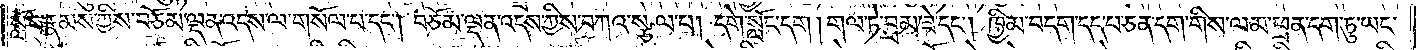སློང་རྣམས་ཀྱིས་བཅོམ་ལྡན་འདས་ལ་གསོལ་བ་དང༌། བཅོམ་ལྡན་འདས་ཀྱིས་བཀའ་སྩལ་པ། དགེ་སློང་དག །གལ་ཏེ་བྲམ་ཟེ་དང༌། ཁྱིམ་བདག་དད་པ་ཅན་དག་གིས་ལམ་ཕྲན་དག་ཏུ་ཡང་
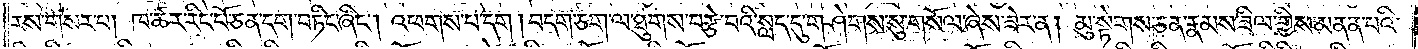རས་གསར་པ། ཁ་ཚར་རིང་པོ་ཅན་དག་བཏིང་ཞིང༌། འཕགས་པ་དག །བདག་ཅག་ལ་ཐུགས་བརྩེ་བའི་སླད་དུ་གཤེགས་སུ་གསོལ་ཞེས་ཟེར་ན། མུ་སྟེགས་ཅན་རྣམས་ཟིལ་གྱིས་མནན་པའི་
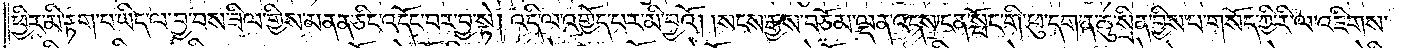ཕྱིར་མི་རྟག་པ་ཡིད་ལ་བྱ་བས་ཟིལ་གྱིས་མནན་ཅིང་འདོང་བར་བྱ་སྟེ། འདི་ལ་འགྱོད་པར་མི་བྱའོ། །སངས་རྒྱས་བཅོམ་ལྡན་འདས་ངན་སྤོང་གི་ཕུ་དག་ན་ཆུ་སྲིན་བྱིས་པ་གསོད་ཀྱི་རི་ལ་འཇིགས་
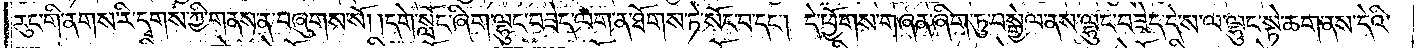རུང་གི་ནགས་རི་དྭགས་ཀྱི་གནས་ན་བཞུགས་སོ། །དགེ་སློང་ཞིག་ལྷུང་བཟེད་ལག་ན་ཐོགས་ཏེ་སོང་བ་དང༌། དེ་ཕྱོགས་གཞན་ཞིག་ཏུ་བསྒྱེལ་ནས་ལྷུང་བཟེད་དེ་ས་ལ་ལྷུང་སྟེ་ཆག་ནས་དེའི་
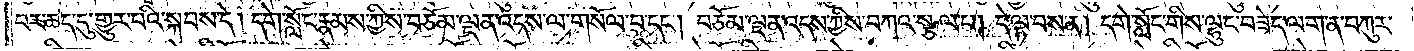བར་ཆད་དུ་གྱུར་པའི་སྐབས་དེ། དགེ་སློང་རྣམས་ཀྱིས་བཅོམ་ལྡན་འདས་ལ་གསོལ་བ་དང༌། བཅོམ་ལྡན་འདས་ཀྱིས་བཀའ་སྩལ་པ། དེ་ལྟ་བས་ན། དགེ་སློང་གིས་ལྷུང་བཟེད་ལག་ན་བཀུར་
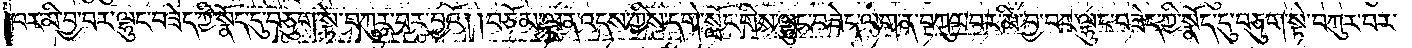བར་མི་བྱ་བར་ལྷུང་བཟེད་ཀྱི་སྣོད་དུ་བཅུག་སྟེ་བཀུར་བར་བྱའོ། །བཅོམ་ལྡན་འདས་ཀྱིས་དགེ་སློང་གིས་ལྷུང་བཟེད་ལག་ན་བཀུར་བར་མི་བྱ་བར་ལྷུང་བཟེད་ཀྱི་སྣོད་དུ་བཅུག་སྟེ་བཀུར་བར་
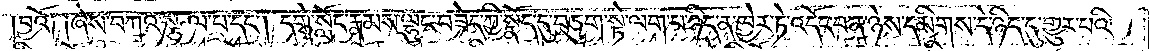བྱའོ༑ ༑ཞེས་བཀའ་སྩལ་པ་དང༌། དགེ་སློང་རྣམས་ལྷུང་བཟེད་ཀྱི་སྣོད་དུ་བཅུག་སྟེ་ལག་པ་ཉིད་ན་ཁྱེར་ཏེ་འདོང་བ་ན་ཉེས་དམིགས་དེ་ཉིད་དུ་གྱུར་པའི་
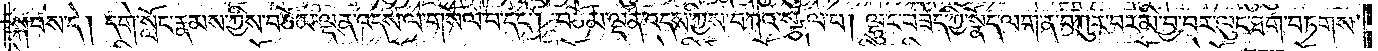སྐབས་དེ། དགེ་སློང་རྣམས་ཀྱི་བཅོམ་ལྡན་འདས་ལ་གསོལ་བ་དང༌། བཅོམ་ལྡན་འདས་ཀྱིས་བཀའ་སྩལ་པ། ལྷུང་བཟེད་ཀྱི་སྣོད་ལག་ན་བཀུར་བར་མི་བྱ་བར་ལུང་ཐག་བཏགས་
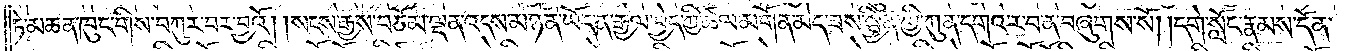ཏེ་མཆན་ཁུང་གིས་བཀུར་བར་བྱའོ། །སངས་རྒྱས་བཅོམ་ལྡན་འདས་མཉན་ཡོད་ན་རྒྱལ་བྱེད་ཀྱི་ཚལ་མགོན་མེད་ཟས་སྦྱིན་གྱི་ཀུན་དགའ་ར་བ་ན་བཞུགས་སོ། །དགེ་སློང་རྣམས་དོན་
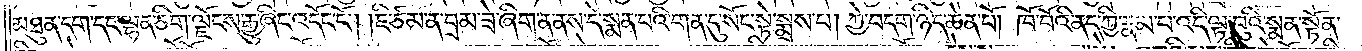མཐུན་དག་དང་ལྷན་ཅིག་ལྗོངས་རྒྱུ་ཞིང་འདོང་ངོ༌། །ཇི་ཙམ་ན་བྲམ་ཟེ་ཞིག་ན་ནས་དེ་སྨན་པའི་གན་དུ་སོང་སྟེ་སྨྲས་པ། ཀྱེ་བདག་ཉིད་ཆེན་པོ། ཁོ་བོའི་ནད་ཀྱི་རྣམ་པ་འདི་ལྟ་བུའི་སྨན་སྟོན་
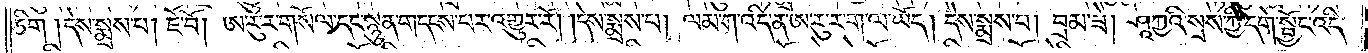ཅིག །དེས་སྨྲས་པ། ཇོ་བོ། ཨ་རུ་ར་གསོལ་དང་སྙུན་གདངས་པར་འགྱུར་རོ། །དེས་སྨྲས་པ། ལམ་ག་འདི་ན་ཨ་རུ་ར་ག་ལ་ཡོད། དེས་སྨྲས་པ། བྲམ་ཟེ། ཤཱཀྱའི་སྲས་ཀྱི་དགེ་སྦྱོང་འདི་
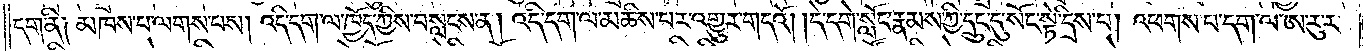དག་ནི༑ མཁས་པ་ལགས་པས། འདི་དག་ལ་ཁྱོད་ཀྱིས་བསླངས་ན། འདི་དག་ལ་མཆིས་པར་འགྱུར་གདའོ། །དེ་དགེ་སློང་རྣམས་ཀྱི་དྲུང་དུ་སོང་སྟེ་དྲིས་པ། འཕགས་པ་དག་ལ་ཨ་རུ་ར་
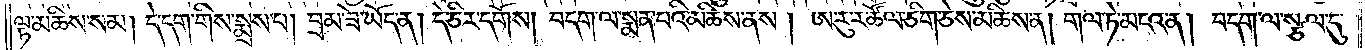ལྟ་མཆིས་སམ། དེ་དག་གིས་སྨྲས་པ། བྲམ་ཟེ་ཡོད་ན། དེ་ཅིར་དགོས། བདག་ལ་སྨན་པའི་མཆིས་ནས། ཨ་རུ་ར་ཚོལ་ཅིག་ཅེས་མཆིས་ན། གལ་ཏེ་མངའ་ན། བདག་ལ་སྩལ་དུ་
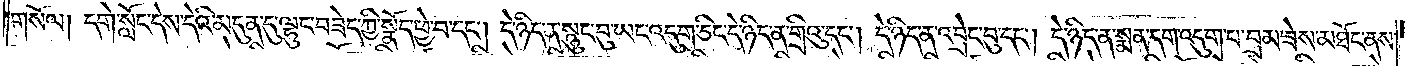གསོལ། དགེ་སློང་དེས་དེའི་མདུན་དུ་ལྷུང་བཟེད་ཀྱི་སྣོད་ཕྱེ་བ་དང༌། དེ་ཉིད་ན་སྙུང་བུ་ཡང་འདུག་ཅིང་དེ་ཉིད་ན་གྲིའུ་དང༌། དེ་ཉིད་ན་འབྲང་བུ་དང༌། དེ་ཉིད་ན་སྨན་དག་འདུག་པ་བྲམ་ཟེས་མཐོང་ནས་
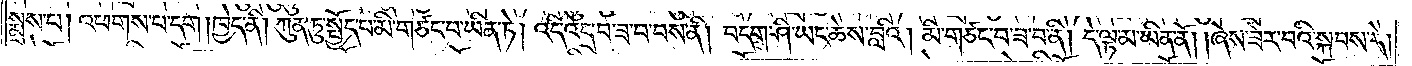སྨྲས་པ། འཕགས་པ་དག །ཁྱེད་ནི། ཀུན་ཏུ་སྤྱོད་པ་མི་གཙང་བ་ཡིན་ཏེ། འདི་འདྲ་བ་ཟ་བ་བས་ནི། བདག་ཤི་ཡང་ཆེས་བླའི། མི་ཙང་བ་ཟ་བ་ནི། དེ་ལྟ་མ་ཡིན་ནོ། །ཞེས་ཟེར་བའི་སྐབས་དེ།
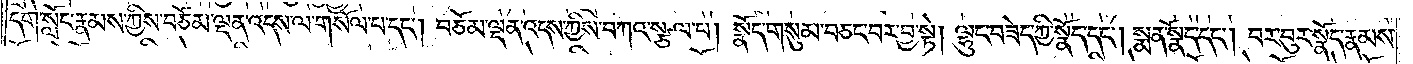དགེ་སློང་རྣམས་ཀྱིས་བཅོམ་ལྡན་འདས་ལ་གསོལ་བ་དང༌། བཅོམ་ལྡན་འདས་ཀྱིས་བཀའ་སྩལ་པ། སྣོད་གསུམ་བཅང་བར་བྱ་སྟེ། ལྷུང་བཟེད་ཀྱི་སྣོད་དང༌། སྨན་སྣོད་དང༌། བར་བུར་སྣོད་རྣམས་
